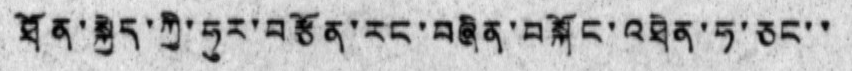ཐོན་སྐྱེད་ཀྱི་ཧུར་བརྩོན་རང་བཞིན་བསྐོང་འཐེན་ཧ་ཅང་་
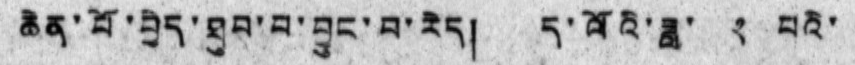ཆེན་པོ་བྱེད་ཐུབ་པ་བྱུང་བ་རེད། ད་ལོའི་ཟླ་ ༢ པའི་
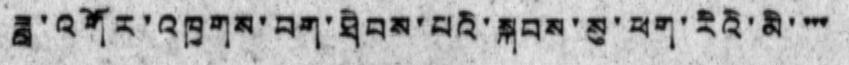ཟླ་འགོར་འཁྱགས་བག་ཐེབས་པའི་སྐབས་སུ་ཕག་རིའི་མི་ ་་་
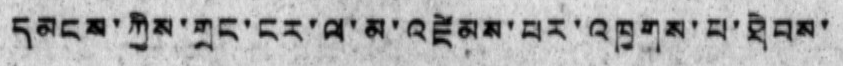དམངས་ཀྱིས་གྲང་ངར་ལ་མ་འཛེམས་པར་འཁྱགས་པ་ཐེབས་
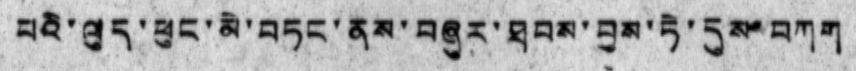པའི་ལུད་ཕུང་མེ་བཏང་ནས་བཞུར་ཐབས་བྱས་ཏེ་དུས་བཀག
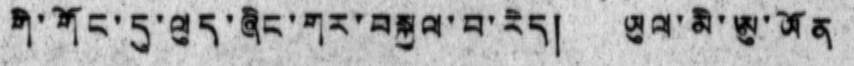གི་གོང་དུ་ལུད་ཞིང་གར་བསྐྱལ་བ་རེད། ཡུལ་མི་ཨུ་ཡོན
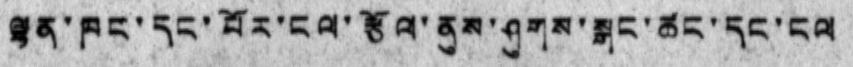ལྷན་ཁང་དང་པོར་ངལ་རྩོལ་ནུས་ཤུགས་སྒང་ཚང་དང་ངལ
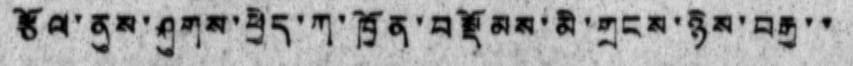རྩོལ་ནུས་ཤུགས་ཕྱེད་ཀ་ཁྱོན་བསྡོམས་མི་གྲངས་ཉིས་བརྒྱ་་
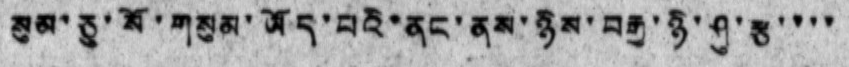སུམ་ཅུ་སོ་གསུམ་ཡོད་པའི་ནང་ནས་ཉིས་བརྒྱ་ཉི་ཤུ་རྩ་་་་
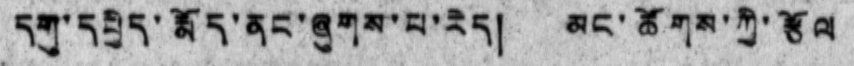དགུ་དཔྱིད་རྨོད་ནང་ཞུགས་པ་རེད། མང་ཚོགས་ཀྱི་རྩོལ
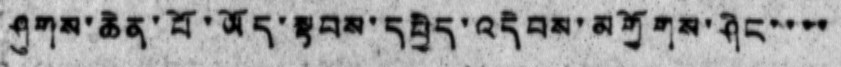ཤུགས་ཆེན་པོ་ཡོད་སྟབས་དཔྱིད་འདེབས་མགྱོགས་ཤིང་་་་
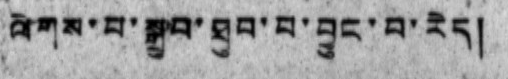ལེགས་པ་སྒྲུབ་ཐུབ་པ་བྱུང་བ་རེད།
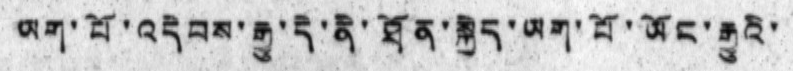ཡག་པོ་འདེབས་རྒྱུ་དེ་ནི་ཐོན་སྐྱེད་ཡག་པོ་ཡོང་རྒྱུའི་
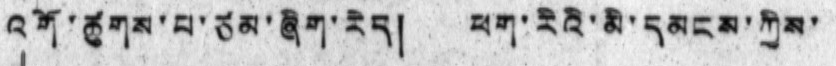འགོ་ཚུགས་པ་ཙམ་ཞིག་རེད། ཕག་རིའི་མི་དམངས་ཀྱིས་
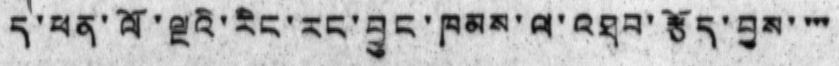ད་ཕན་ལོ་ལྔའི་རིང་རང་བྱུང་ཁམས་ལ་འཐབ་རྩོད་བྱས་ ་་་
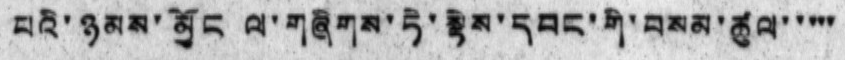པའི་ཉམས་མྱོང ལ་གཞིགས་ཏེ་སྟེས་དབང་གི་བམམ་ཚུལ་་་་་
